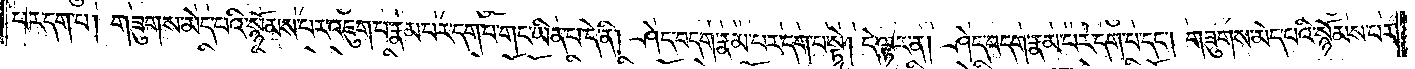པར་དག་པ། གཟུགས་མེད་པའི་སྙོམས་པར་འཇུག་པ་རྣམ་པར་དག་པ་གང་ཡིན་པ་དེ་ནི། ཤེད་བདག་རྣམ་པར་དག་པ་སྟེ། དེ་ལྟར་ན། ཤེད་བདག་རྣམ་པར་དག་པ་དང༌། གཟུགས་མེད་པའི་སྙོམས་པར་
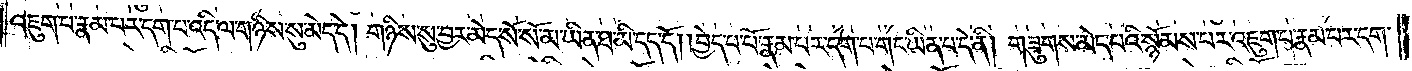འཇུག་པ་རྣམ་པར་དག་པ་འདི་ལ་གཉིས་སུ་མེད་དེ། གཉིས་སུ་བྱར་མེད་སོ་སོ་མ་ཡིན་ཐ་མི་དད་དོ། །བྱེད་པ་པོ་རྣམ་པར་དག་པ་གང་ཡིན་པ་དེ་ནི། གཟུགས་མེད་པའི་སྙོམས་པར་འཇུག་པ་རྣམ་པར་དག་
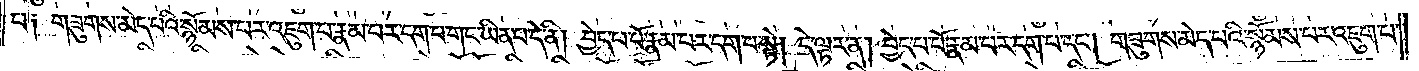པ། གཟུགས་མེད་པའི་སྙོམས་པར་འཇུག་པ་རྣམ་པར་དག་པ་གང་ཡིན་པ་དེ་ནི། བྱེད་པ་པོ་རྣམ་པར་དག་པ་སྟེ། དེ་ལྟར་ན། བྱེད་པ་པོ་རྣམ་པར་དག་པ་དང༌། གཟུགས་མེད་པའི་སྙོམས་པར་འཇུག་པ་
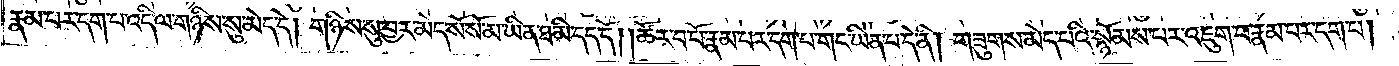རྣམ་པར་དག་པ་འདི་ལ་གཉིས་སུ་མེད་དེ། གཉིས་སུ་བྱར་མེད་སོ་སོ་མ་ཡིན་ཐ་མི་དད་དོ། །ཚོར་བ་པོ་རྣམ་པར་དག་པ་གང་ཡིན་པ་དེ་ནི། གཟུགས་མེད་པའི་སྙོམས་པར་འཇུག་པ་རྣམ་པར་དག་པ།
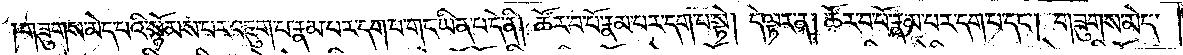གཟུགས་མེད་པའི་སྙོམས་པར་འཇུག་པ་རྣམ་པར་དག་པ་གང་ཡིན་པ་དེ་ནི། ཚོར་བ་པོ་རྣམ་པར་དག་པ་སྟེ། དེ་ལྟར་ན། ཚོར་བ་པོ་རྣམ་པར་དག་པ་དང༌། གཟུགས་མེད་
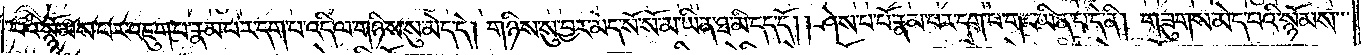པའི་སྙོམས་པར་འཇུག་པ་རྣམ་པར་དག་པ་འདི་ལ་གཉིས་སུ་མེད་དེ། གཉིས་སུ་བྱར་མེད་སོ་སོ་མ་ཡིན་ཐ་མི་དད་དོ། །ཤེས་པ་པོ་རྣམ་པར་དག་པ་གང་ཡིན་པ་དེ་ནི། གཟུགས་མེད་པའི་སྙོམས་
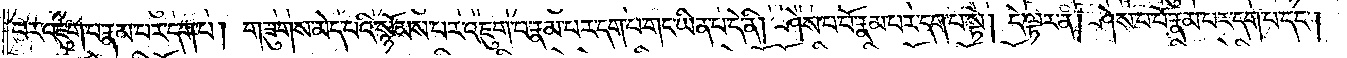པར་འཇུག་པ་རྣམ་པར་དག་པ། གཟུགས་མེད་པའི་སྙོམས་པར་འཇུག་པ་རྣམ་པར་དག་པ་གང་ཡིན་པ་དེ་ནི། ཤེས་པ་པོ་རྣམ་པར་དག་པ་སྟེ། དེ་ལྟར་ན། ཤེས་པ་པོ་རྣམ་པར་དག་པ་དང༌།
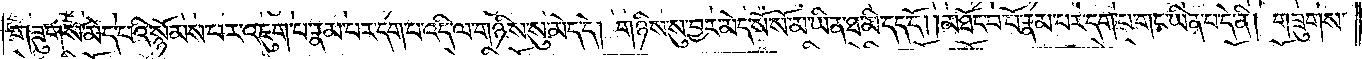གཟུགས་མེད་པའི་སྙོམས་པར་འཇུག་པ་རྣམ་པར་དག་པ་འདི་ལ་གཉིས་སུ་མེད་དེ། གཉིས་སུ་བྱར་མེད་སོ་སོ་མ་ཡིན་ཐ་མི་དད་དོ། །མཐོང་བ་པོ་རྣམ་པར་དག་པ་གང་ཡིན་པ་དེ་ནི། གཟུགས་
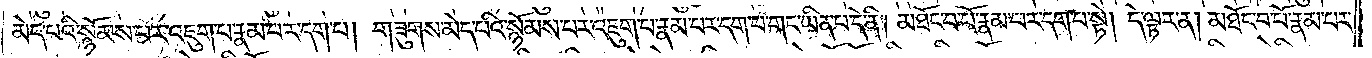མེད་པའི་སྙོམས་པར་འཇུག་པ་རྣམ་པར་དག་པ། གཟུགས་མེད་པའི་སྙོམས་པར་འཇུག་པ་རྣམ་པར་དག་པ་གང་ཡིན་པ་དེ་ནི། མཐོང་བ་པོ་རྣམ་པར་དག་པ་སྟེ། དེ་ལྟར་ན། མཐོང་བ་པོ་རྣམ་པར་
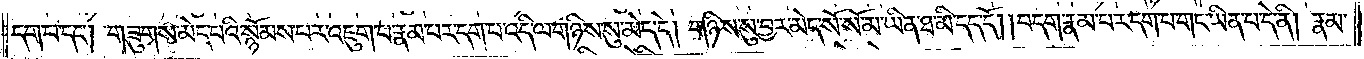དག་པ་དང༌། གཟུགས་མེད་པའི་སྙོམས་པར་འཇུག་པ་རྣམ་པར་དག་པ་འདི་ལ་གཉིས་སུ་མེད་དེ། གཉིས་སུ་བྱར་མེད་སོ་སོ་མ་ཡིན་ཐ་མི་དད་དོ། །བདག་རྣམ་པར་དག་པ་གང་ཡིན་པ་དེ་ནི། རྣམ་
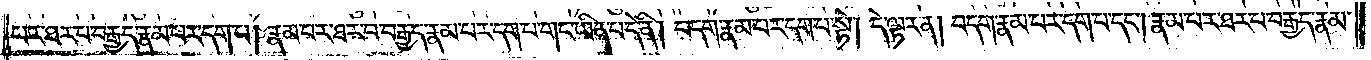པར་ཐར་པ་བརྒྱད་རྣམ་པར་དག་པ། རྣམ་པར་ཐར་པ་བརྒྱད་རྣམ་པར་དག་པ་གང་ཡིན་པ་དེ་ནི། བདག་རྣམ་པར་དག་པ་སྟེ། དེ་ལྟར་ན། བདག་རྣམ་པར་དག་པ་དང༌། རྣམ་པར་ཐར་པ་བརྒྱད་རྣམ་
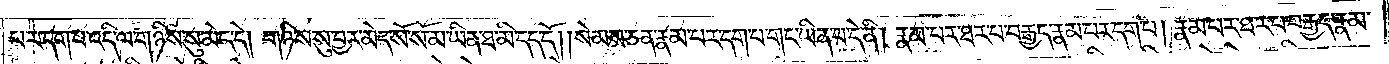པར་དག་པ་འདི་ལ་གཉིས་སུ་མེད་དེ། གཉིས་སུ་བྱར་མེད་སོ་སོ་མ་ཡིན་ཐ་མི་དད་དོ། །སེམས་ཅན་རྣམ་པར་དག་པ་གང་ཡིན་པ་དེ་ནི། རྣམ་པར་ཐར་པ་བརྒྱད་རྣམ་པར་དག་པ། རྣམ་པར་ཐར་པ་བརྒྱད་རྣམ་
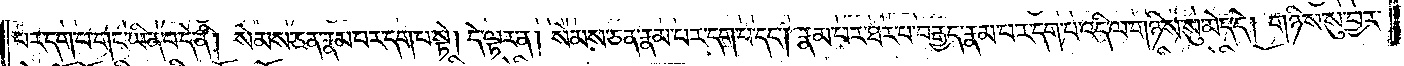པར་དག་པ་གང་ཡིན་པ་དེ་ནི། སེམས་ཅན་རྣམ་པར་དག་པ་སྟེ། དེ་ལྟར་ན། སེམས་ཅན་རྣམ་པར་དག་པ་དང༌། རྣམ་པར་ཐར་པ་བརྒྱད་རྣམ་པར་དག་པ་འདི་ལ་གཉིས་སུ་མེད་དེ། གཉིས་སུ་བྱར་
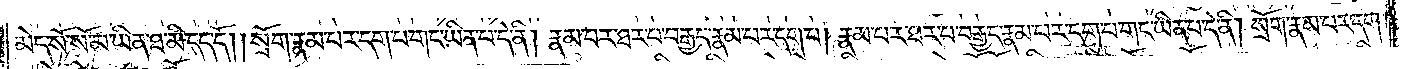མེད་སོ་སོ་མ་ཡིན་ཐ་མི་དད་དོ། །སྲོག་རྣམ་པར་དག་པ་གང་ཡིན་པ་དེ་ནི། རྣམ་པར་ཐར་པ་བརྒྱད་རྣམ་པར་དག་པ། རྣམ་པར་ཐར་པ་བརྒྱད་རྣམ་པར་དག་པ་གང་ཡིན་པ་དེ་ནི། སྲོག་རྣམ་པར་དག་
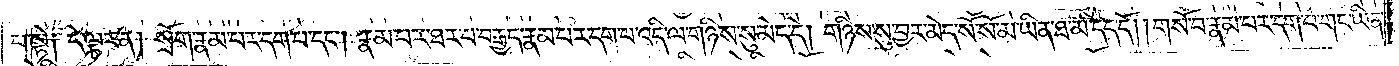པ་སྟེ། དེ་ལྟར་ན། སྲོག་རྣམ་པར་དག་པ་དང༌། རྣམ་པར་ཐར་པ་བརྒྱད་རྣམ་པར་དག་པ་འདི་ལ་གཉིས་སུ་མེད་དེ། གཉིས་སུ་བྱར་མེད་སོ་སོ་མ་ཡིན་ཐ་མི་དད་དོ། །གསོ་བ་རྣམ་པར་དག་པ་གང་ཡིན་
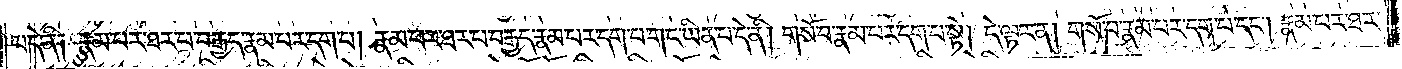པ་དེ་ནི། རྣམ་པར་ཐར་པ་བརྒྱད་རྣམ་པར་དག་པ། རྣམ་པར་ཐར་པ་བརྒྱད་རྣམ་པར་དག་པ་གང་ཡིན་པ་དེ་ནི། གསོ་བ་རྣམ་པར་དག་པ་སྟེ། དེ་ལྟར་ན། གསོ་བ་རྣམ་པར་དག་པ་དང༌། རྣམ་པར་ཐར་
